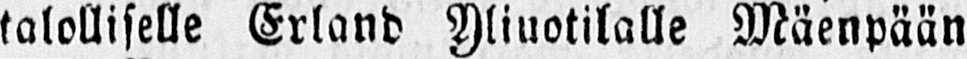talolliselle Erland Yliuotilalle Mäenpään
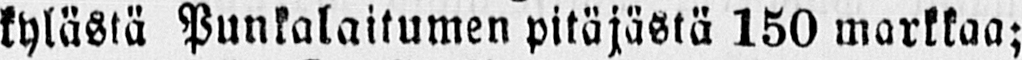kylästä Punkalaitumen pitäjästä 150 markkaa;
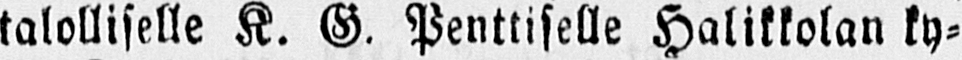talolliselle K. G. Penttiselle Halikkolan ky-
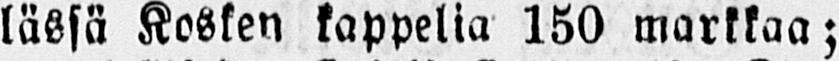lässä Kosken kappelia 150 markkaa;
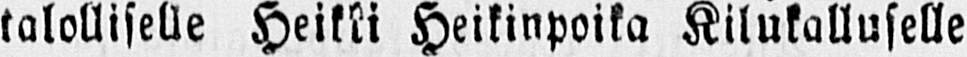talolliselle Heikki Heikinpoika Kilukalluselle
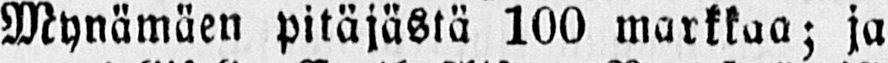Mynämäen pitäjästä 100 markkaa; ja
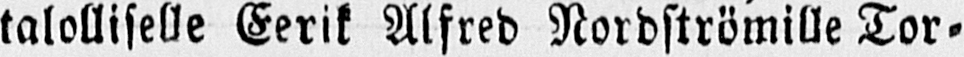talolliselle Eerik Alfred Nordströmille Tor-
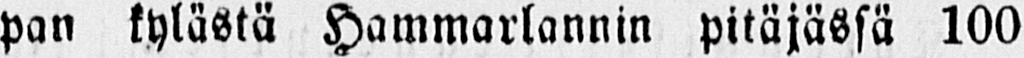pan kylästä Hammarlannin pitäjässä 100
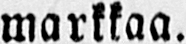markkaa.
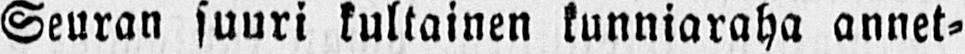Seuran suuri kultainen kunniaraha annet-
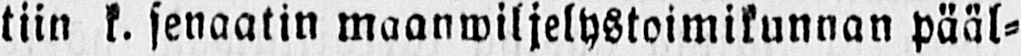tiin k. senaatin maanwiljelystoimikunnan pääl-
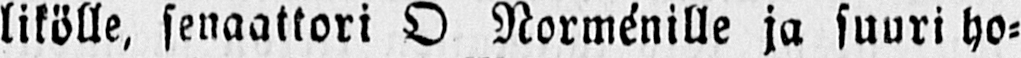likölle, senaattori O Norménille ja suuri ho-
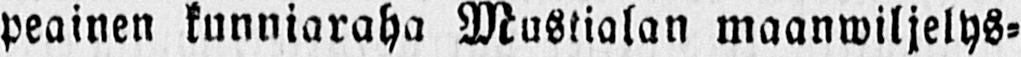peainen kunniaraha Mustialan maanwiljelys-
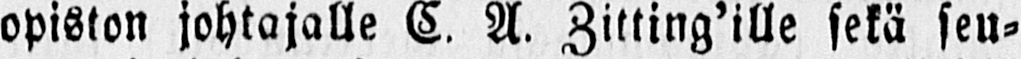opiston johtajalle C. A. Zitting’ille sekä seu-
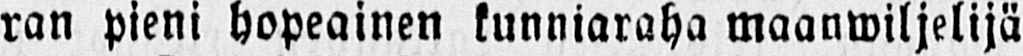ran pieni hopeainen kunniaraha maanwiljelijä
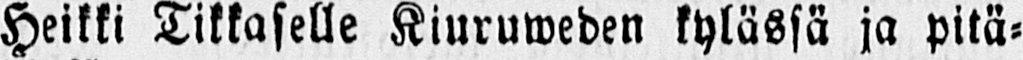Heikki Tikkaselle Kiuruweden kylässä ja pitä-
